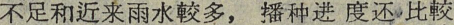不足和近来雨水較多，播种进度还 比較
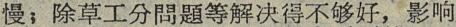慢；除草工分問題等解决得不够好，影响
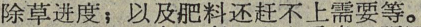除草进度；以及肥料还赶不上需要等。
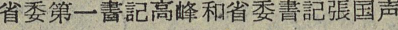省委第一書記高峰和省委書記張国声
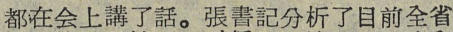都在会上講了話。張書記分析了目前全省
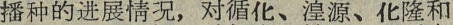播种的进展情況，对循化、湟源、化隆和
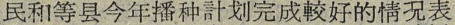民和等县今年播种計划完成較好的情況表
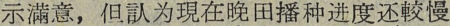示滿意，但认为現在晚田播种进度还較慢
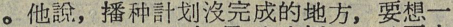。他說，播种計划沒完成的地方，要想一
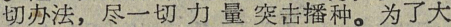切办法，尽一切力量突击播种。为了大
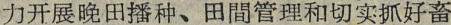力开展晚田播种、田間管理和切实抓好畜
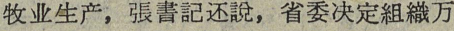牧业生产；張書記还說，省委决定組織万
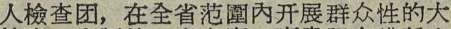人檢查团，在全省治圍内开展群众性的大
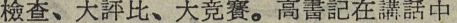檢查、大評比、大竞賽。高書記在講話中
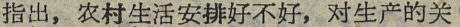指出，农村生活安排好不好，对生产的关
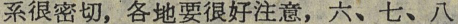系很密切，各地要很好注意，六、七、八
